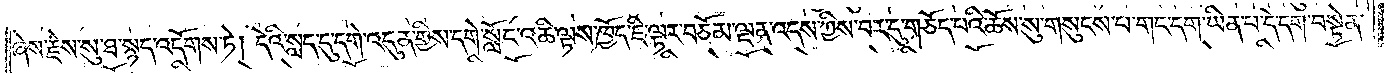ཞེས་རྗེས་སུ་ཐ་སྙད་འདོགས་ཏེ། དེའི་སླད་དུ་དགེ་འདུན་གྱིས་དགེ་སློང་འཆི་ལྟས་ཁྱོད་ཇི་ལྟར་བཅོམ་ལྡན་འདས་ཀྱིས་བར་དུ་གཅོད་པའི་ཆོས་སུ་གསུངས་པ་གང་དག་ཡིན་པ་དེ་དག་བསྟེན་
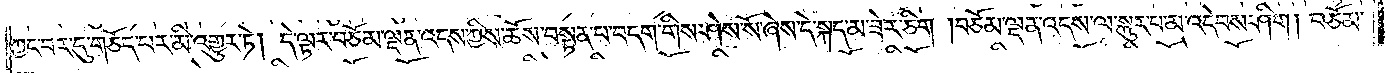ཀྱང་བར་དུ་གཅོད་པར་མི་འགྱུར་ཏེ། དེ་ལྟར་བཅོམ་ལྡན་འདས་ཀྱིས་ཆོས་བསྟན་པ་བདག་གིས་ཤེས་སོ་ཞེས་དེ་སྐད་མ་ཟེར་ཅིག །བཅོམ་ལྡན་འདས་ལ་སྐུར་པ་མ་འདེབས་ཤིག །བཅོམ་
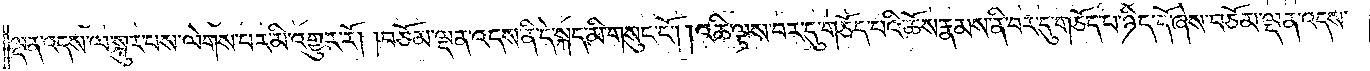ལྡན་འདས་ལ་སྐུར་པས་ལེགས་པར་མི་འགྱུར་རོ། །བཅོམ་ལྡན་འདས་ནི་དེ་སྐད་མི་གསུང་ངོ༌། །འཆི་ལྟས་བར་དུ་གཅོད་པའི་ཆོས་རྣམས་ནི་བར་དུ་གཅོད་པ་ཉིད་དོ་ཞེས་བཅོམ་ལྡན་འདས་
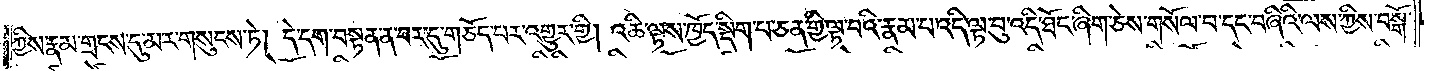ཀྱིས་རྣམ་གྲངས་དུ་མར་གསུངས་ཏེ། དེ་དག་བསྟན་ན་བར་དུ་གཅོད་པར་འགྱུར་གྱི། འཆི་ལྟས་ཁྱོད་སྡིག་པ་ཅན་གྱི་ལྟ་བའི་རྣམ་པ་འདི་ལྟ་བུ་འདི་ཐོང་ཞིག་ཅེས་གསོལ་བ་དང་བཞིའི་ལས་ཀྱིས་བསྒོ་
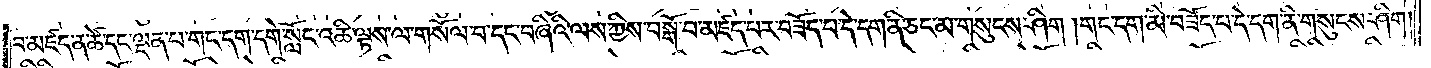བ་མཛད་ན་ཚེ་དང་ལྡན་པ་གང་དག་དགེ་སློང་འཆི་ལྟས་ལ་གསོལ་བ་དང་བཞིའི་ལས་ཀྱིས་བསྒོ་བ་མཛད་པར་བཟོད་པ་དེ་དག་ནི་ཅང་མ་གསུངས་ཤིག །གང་དག་མི་བཟོད་པ་དེ་དག་ནི་གསུངས་ཤིག།
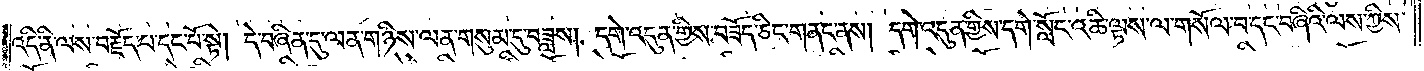འདི་ནི་ལས་བརྗོད་པ་དང་པོ་སྟེ། དེ་བཞིན་དུ་ལན་གཉིས་ལན་གསུམ་དུ་བཟླས། དགེ་འདུན་གྱིས་བཟོད་ཅིང་གནང་ནས། དགེ་འདུན་གྱིས་དགེ་སློང་འཆི་ལྟས་ལ་གསོལ་བ་དང་བཞིའི་ལས་ཀྱིས་
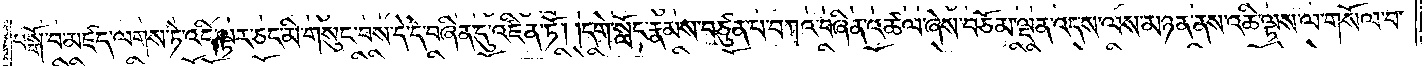བསྒོ་བ་མཛད་ལགས་ཏེ་འདི་ལྟར་ཅང་མི་གསུང་བས་དེ་དེ་བཞིན་དུ་འཛིན་ཏོ། །དགེ་སློང་རྣམས་བཙུན་པ་བཀའ་བཞིན་འཚལ་ཞེས་བཅོམ་ལྡན་འདས་ལས་མཉན་ནས་འཆི་ལྟས་ལ་གསོལ་བ་
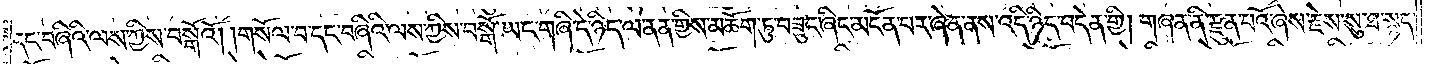དང་བཞིའི་ལས་ཀྱིས་བསྒོའོ། །གསོལ་བ་དང་བཞིའི་ལས་ཀྱིས་བསྒོ་ཡང་གཞི་དེ་ཉིད་ལ་ནན་གྱིས་མཆོག་ཏུ་བཟུང་ཞིང་མངོན་པར་ཞེན་ནས་འདི་ཉིད་བདེན་གྱི། གཞན་ནི་རྫུན་པའོ་ཞེས་རྗེས་སུ་ཐ་སྙད་
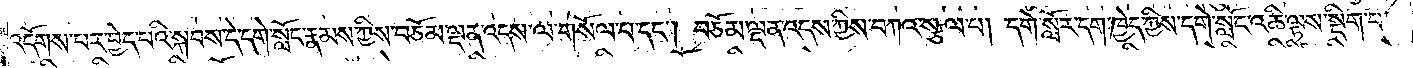འདོགས་པར་བྱེད་པའི་སྐབས་དེ་དགེ་སློང་རྣམས་ཀྱིས་བཅོམ་ལྡན་འདས་ལ་གསོལ་པ་དང༌། བཅོམ་ལྡན་འདས་ཀྱིས་བཀའ་སྩལ་པ། དགེ་སློང་དག་ཁྱེད་ཀྱིས་དགེ་སློང་འཆི་ལྟས་སྡིག་པ་
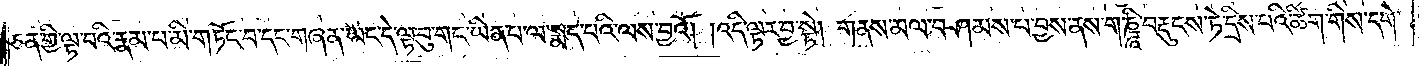ཅན་གྱི་ལྟ་བའི་རྣམ་པ་མི་གཏོང་བ་དང་གཞན་ཡང་དེ་ལྟ་བུ་གང་ཡིན་པ་ལ་སྨད་པའི་ལས་བྱའོ། །འདི་ལྟར་བྱ་སྟེ། གནས་མལ་བཤམས་པ་བྱས་ནས་གཎྜཱི་བརྡུངས་ཏེ་དྲིས་པའི་ཚིག་གིས་དགེ་
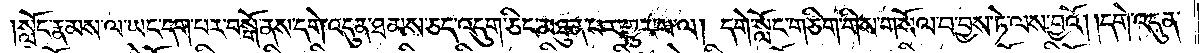སློང་རྣམས་ལ་ཡང་དག་པར་བསྒོ་ནས་དགེ་འདུན་ཐམས་ཅད་འདུག་ཅིང་མཐུན་པར་གྱུར་པ་ལ། དགེ་སློང་གཅིག་གིས་གསོལ་བ་བྱས་ཏེ་ལས་བྱའོ། །དགེ་འདུན་
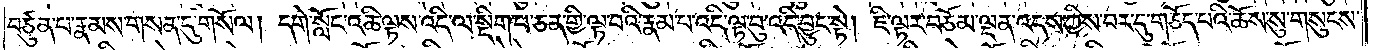བཙུན་པ་རྣམས་གསན་དུ་གསོལ། དགེ་སློང་འཆི་ལྟས་འདི་ལ་སྡིག་པ་ཅན་གྱི་ལྟ་བའི་རྣམ་པ་འདི་ལྟ་བུ་འདི་བྱུང་སྟེ། ཇི་ལྟར་བཅོམ་ལྡན་འདས་ཀྱིས་བར་དུ་གཅོད་པའི་ཆོས་སུ་གསུངས་
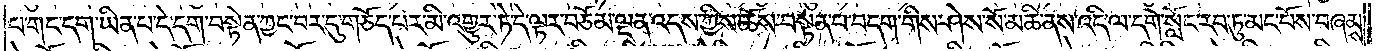པ་གང་དག་ཡིན་པ་དེ་དག་བསྟེན་ཀྱང་བར་དུ་གཅོད་པར་མི་འགྱུར་ཏེ་དེ་ལྟར་བཅོམ་ལྡན་འདས་ཀྱིས་ཆོས་བསྟན་པ་བདག་གིས་ཤེས་སོ་མཆི་ནས་འདི་ལ་དགེ་སློང་རབ་ཏུ་མང་པོས་བཞམས་
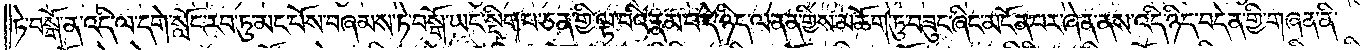ཏེ་བསྒོ་ན་འདི་ལ་དགེ་སློང་རབ་ཏུ་མང་པོས་བཞམས་ཏེ་བསྒོ་ཡང་སྡིག་པ་ཅན་གྱི་ལྟ་བའི་རྣམ་པ་དེ་ཉིད་ལ་ནན་གྱིས་མཆོག་ཏུ་བཟུང་ཞིང་མངོན་པར་ཞེན་ནས་འདི་ཉིད་བདེན་གྱི་གཞན་ནི་
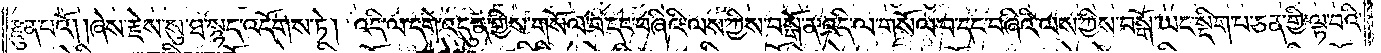རྫུན་པའོ། །ཞེས་རྗེས་སུ་ཐ་སྙད་འདོགས་ཏེ། འདི་ལ་དགེ་འདུན་གྱིས་གསོལ་བ་དང་བཞིའི་ལས་ཀྱིས་བསྒོ་ན་འདི་ལ་གསོལ་བ་དང་བཞིའི་ལས་ཀྱིས་བསྒོ་ཡང་སྡིག་པ་ཅན་གྱི་ལྟ་བའི་
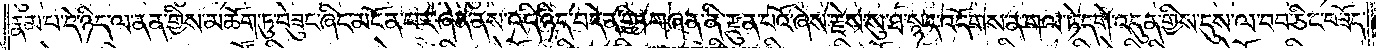རྣམ་པ་དེ་ཉིད་ལ་ནན་གྱིས་མཆོག་ཏུ་བཟུང་ཞིང་མངོན་པར་ཞེན་ནས་འདི་ཉིད་བདེན་གྱི། གཞན་ནི་རྫུན་པའོ་ཞེས་རྗེས་སུ་ཐ་སྙད་འདོགས་ན་གལ་ཏེ་དགེ་འདུན་གྱིས་དུས་ལ་བབ་ཅིང་བཟོད་
